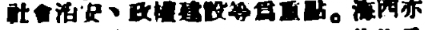社會治安、政權建設等爲重點。海西亦
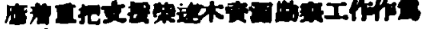應着重把支援柴達木資源勘察工作作爲
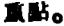重點。
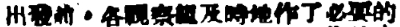出發前，各視察組及時地作了必要的
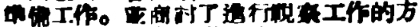準備工作。並商討了進行視察工作的方
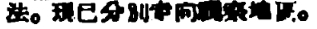法。現已分別走向視察地區。
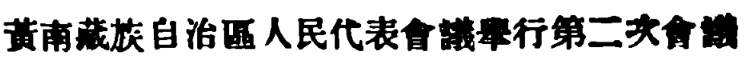黃南藏族自治區人民代表會議舉行第二次會議
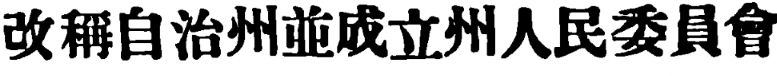改稱自治州並成立州人民委員會
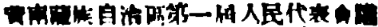黃南藏族自治區第一屆人民代表會議
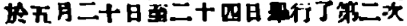於五月二十日至二十四日舉行了第二次
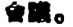會議。
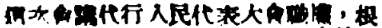這次會議代行人民代表大會職權，根
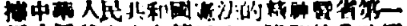據中華人民共和國憲法的精神暨省第一
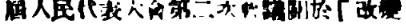屆人民代表大會第二次會議關於「改變
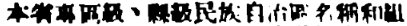本省專區級、縣級民族自治區名稱和組
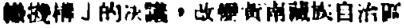織機構」的決議，改變黃南藏族自治區
